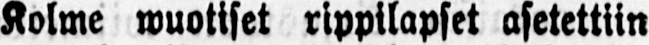Kolme wuotiset rippilapset asetettiin
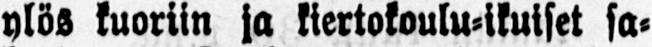ylös kuoriin ja kiertokoulu-ikuiset sa-
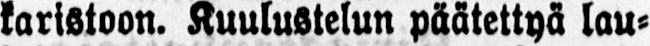karistoon. Kuulustelun päätettyä lau-
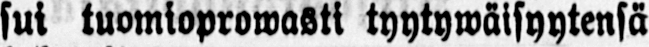sui tuomioprowasti tyytywäisyytensä
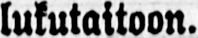lukutaitoon.
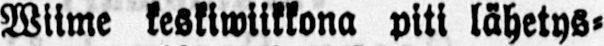Wiime keskiwiikkona piti lähetys-
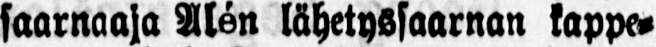saarnaaja Alén lähetyssaarnan kappe-
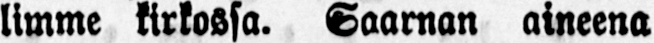limme kirkossa. Saarnan aineena
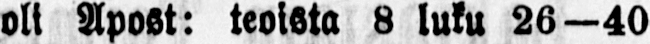oli Apost: teoista 8 luku 26—40
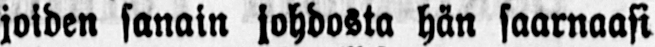joiden sanain johdosta hän saarnaasi
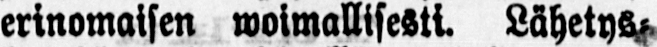erinomaisen woimallisesti. Lähetys-
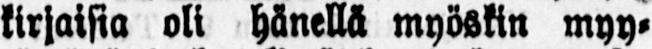kirjaisia oli hänellä myöskin myy-
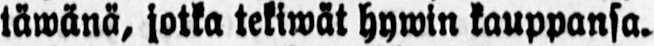täwänä, jotka tekiwät hywin kauppansa.
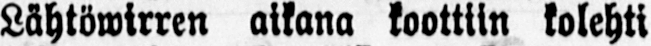Lähtöwirren aikana koottiin kolehti
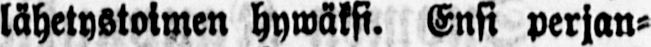lähetystoimen hywäksi. Ensi perjan-
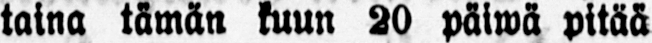taina tämän kuun 20 päiwä pitää
